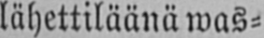lähettiläänä was-
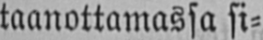taanottamassa si-
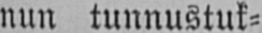nun tunnustuk-
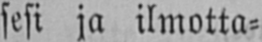sesi ja ilmotta-
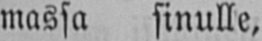massa sinulle,
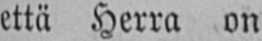että Herra on
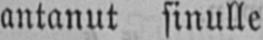antanut sinulle
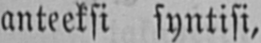anteeksi syntisi,
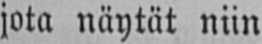jota näytät niin
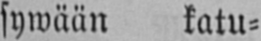sywään katu-
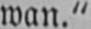wan."
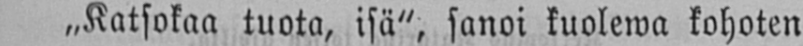„Katsokaa tuota, isä", sanoi kuolewa kohoten
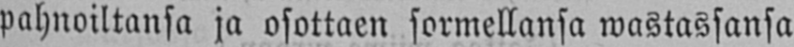pahnoiltansa ja osottaen sormellansa wastassansa
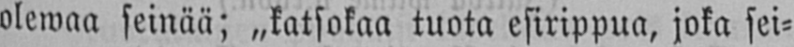olewaa seinää; „katsokaa tuota esirippua, joka sei-
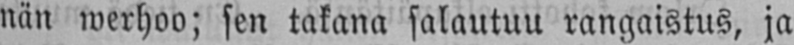nän werhoo; sen takana salautuu rangaistus, ja
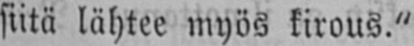siitä lähtee myös kirous."
